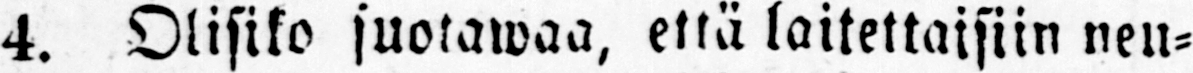4. Olisiko suotawaa, että laitettaisiin neu-
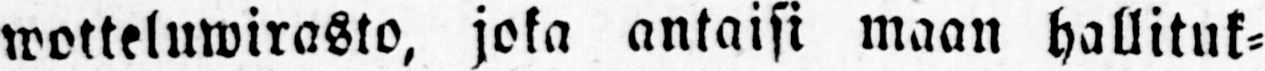wotteluwirasto, joka antaisi maan hallituk-
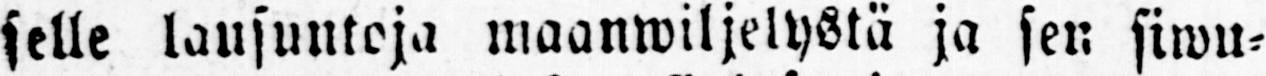selle lausuntoja maanwiljelystä ja sen siwu-
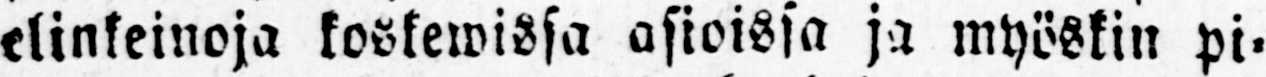elinkeinoja koskewissa asioissa ja myöskin pi-
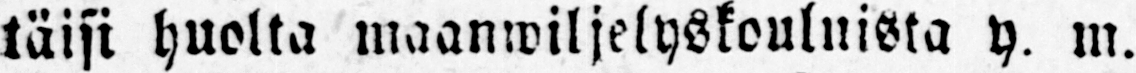täisi huolta maanwiljelyskouluista y. m.
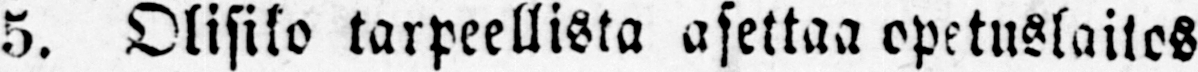5. Olisiko tarpeellista asettaa opetuslaitos
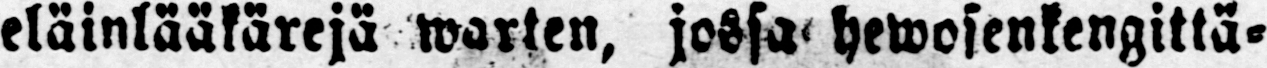eläinlääkärejä marten, jossa hevosenkengittä-
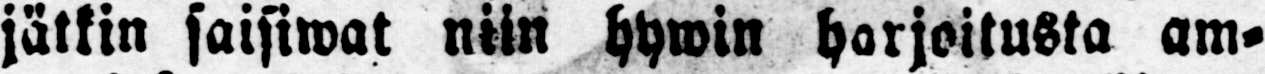jätkin saisimat niin hyvin harjoitusta am-
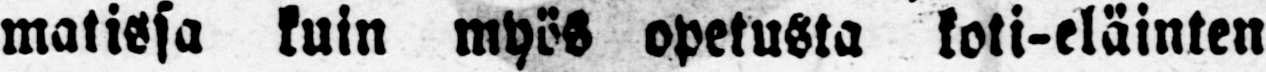matissa kuin myö- opetusta koti-eläinten
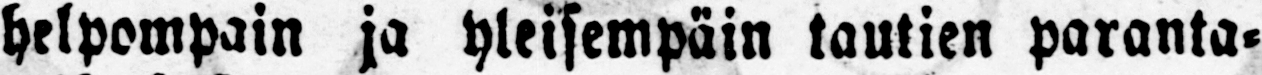helpompain ja yleisempäin tautien paranta-
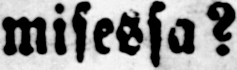misessa?
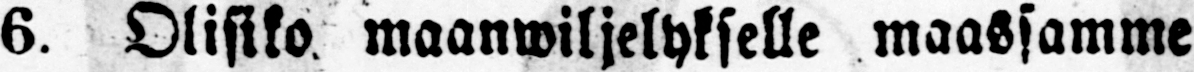6. Olisiko maanviljelykselle maassamme
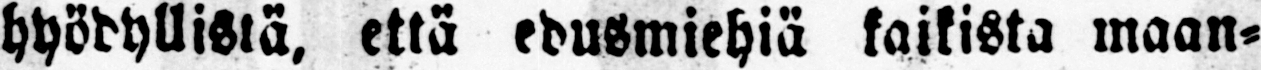hyödyllisiä, että eduSmiehia kaikista maan-
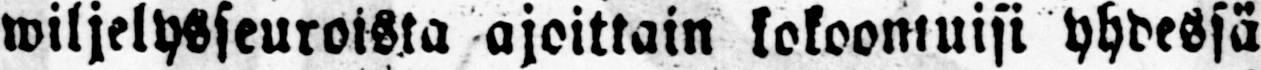viljelysseuroista ajoittain kokoontuisi yhdessä
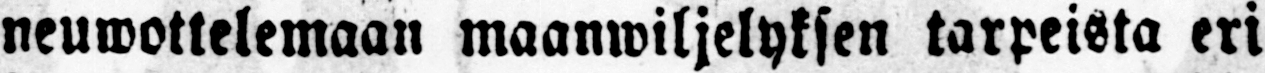neumottelemaan maanmiljelyksen tarpeista eri
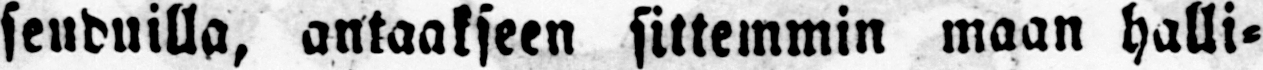seuduilla, antaakseen sittemmin maan halli-
